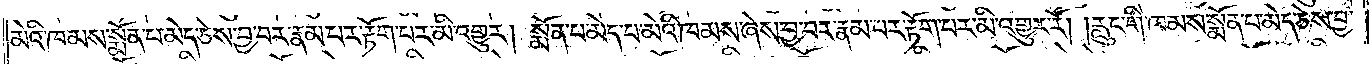མེའི་ཁམས་སྨོན་པ་མེད་ཅེས་བྱ་བར་རྣམ་པར་རྟོག་པར་མི་འགྱུར། སྨོན་པ་མེད་པ་མེའི་ཁམས་ཞེས་བྱ་བར་རྣམ་པར་རྟོག་པར་མི་འགྱུར་རོ། །རླུང་གི་ཁམས་སྨོན་པ་མེད་ཅེས་བྱ་
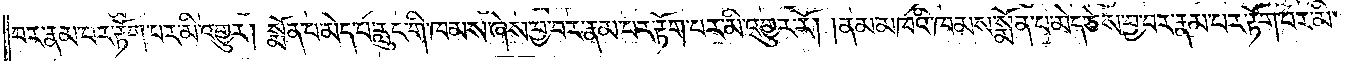བར་རྣམ་པར་རྟོག་པར་མི་འགྱུར། སྨོན་པ་མེད་པ་རླུང་གི་ཁམས་ཞེས་བྱ་བར་རྣམ་པར་རྟོག་པར་མི་འགྱུར་རོ། །ནམ་མཁའི་ཁམས་སྨོན་པ་མེད་ཅེས་བྱ་བར་རྣམ་པར་རྟོག་པར་མི་
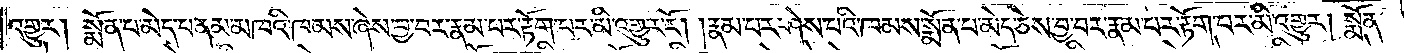འགྱུར། སྨོན་པ་མེད་པ་ནམ་མཁའི་ཁམས་ཞེས་བྱ་བར་རྣམ་པར་རྟོག་པར་མི་འགྱུར་རོ། །རྣམ་པར་ཤེས་པའི་ཁམས་སྨོན་པ་མེད་ཅེས་བྱ་བར་རྣམ་པར་རྟོག་པར་མི་འགྱུར། སྨོན་
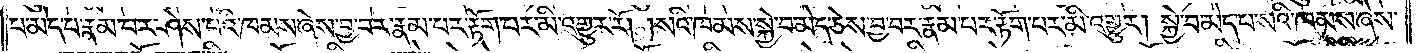པ་མེད་པ་རྣམ་པར་ཤེས་པའི་ཁམས་ཞེས་བྱ་བར་རྣམ་པར་རྟོག་པར་མི་འགྱུར་རོ། །སའི་ཁམས་སྐྱེ་བ་མེད་ཅེས་བྱ་བར་རྣམ་པར་རྟོག་པར་མི་འགྱུར། སྐྱེ་བ་མེད་པ་སའི་ཁམས་ཞེས་
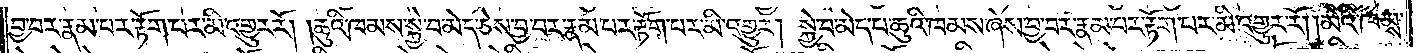བྱ་བར་རྣམ་པར་རྟོག་པར་མི་འགྱུར་རོ། །ཆུའི་ཁམས་སྐྱེ་བ་མེད་ཅེས་བྱ་བར་རྣམ་པར་རྟོག་པར་མི་འགྱུར། སྐྱེ་བ་མེད་པ་ཆུའི་ཁམས་ཞེས་བྱ་བར་རྣམ་པར་རྟོག་པར་མི་འགྱུར་རོ། །མེའི་ཁམས་
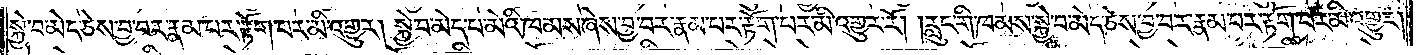སྐྱེ་བ་མེད་ཅེས་བྱ་བར་རྣམ་པར་རྟོག་པར་མི་འགྱུར། སྐྱེ་བ་མེད་པ་མེའི་ཁམས་ཞེས་བྱ་བར་རྣམ་པར་རྟོག་པར་མི་འགྱུར་རོ། །རླུང་གི་ཁམས་སྐྱེ་བ་མེད་ཅེས་བྱ་བར་རྣམ་པར་རྟོག་པར་མི་འགྱུར།
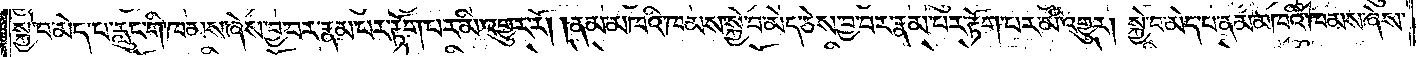སྐྱེ་བ་མེད་པ་རླུང་གི་ཁམས་ཞེས་བྱ་བར་རྣམ་པར་རྟོག་པར་མི་འགྱུར་རོ། །ནམ་མཁའི་ཁམས་སྐྱེ་བ་མེད་ཅེས་བྱ་བར་རྣམ་པར་རྟོག་པར་མི་འགྱུར། སྐྱེ་བ་མེད་པ་ནམ་མཁའི་ཁམས་ཞེས་
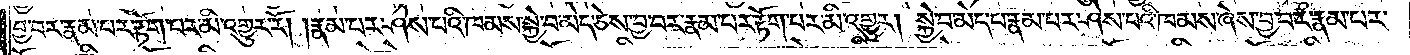བྱ་བར་རྣམ་པར་རྟོག་པར་མི་འགྱུར་རོ། །རྣམ་པར་ཤེས་པའི་ཁམས་སྐྱེ་བ་མེད་ཅེས་བྱ་བར་རྣམ་པར་རྟོག་པར་མི་འགྱུར། སྐྱེ་བ་མེད་པ་རྣམ་པར་ཤེས་པའི་ཁམས་ཞེས་བྱ་བར་རྣམ་པར་
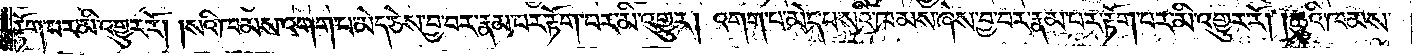རྟོག་པར་མི་འགྱུར་རོ། །སའི་ཁམས་འགག་པ་མེད་ཅེས་བྱ་བར་རྣམ་པར་རྟོག་པར་མི་འགྱུར། འགག་པ་མེད་པ་སའི་ཁམས་ཞེས་བྱ་བར་རྣམ་པར་རྟོག་པར་མི་འགྱུར་རོ། །ཆུའི་ཁམས་
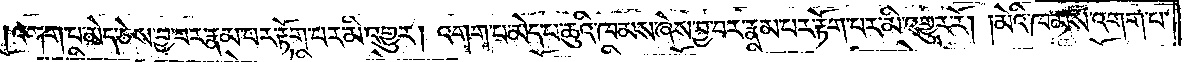འགག་པ་མེད་ཅེས་བྱ་བར་རྣམ་པར་རྟོག་པར་མི་འགྱུར། འགག་པ་མེད་པ་ཆུའི་ཁམས་ཞེས་བྱ་བར་རྣམ་པར་རྟོག་པར་མི་འགྱུར་རོ། །མེའི་ཁམས་འགག་པ་
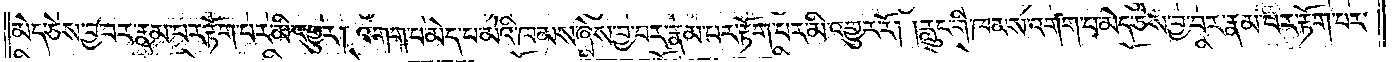མེད་ཅེས་བྱ་བར་རྣམ་པར་རྟོག་པར་མི་འགྱུར། འགག་པ་མེད་པ་མེའི་ཁམས་ཞེས་བྱ་བར་རྣམ་པར་རྟོག་པར་མི་འགྱུར་རོ། །རླུང་གི་ཁམས་འགག་པ་མེད་ཅེས་བྱ་བར་རྣམ་པར་རྟོག་པར་
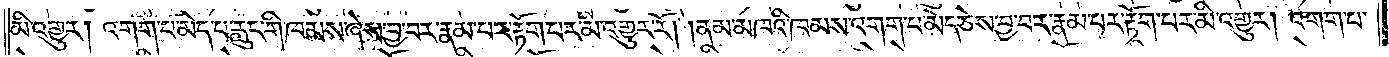མི་འགྱུར། འགག་པ་མེད་པ་རླུང་གི་ཁམས་ཞེས་བྱ་བར་རྣམ་པར་རྟོག་པར་མི་འགྱུར་རོ། །ནམ་མཁའི་ཁམས་འགག་པ་མེད་ཅེས་བྱ་བར་རྣམ་པར་རྟོག་པར་མི་འགྱུར། འགག་པ་
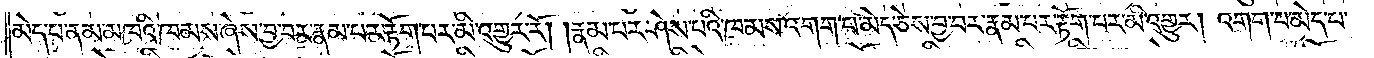མེད་པ་ནམ་མཁའི་ཁམས་ཞེས་བྱ་བར་རྣམ་པར་རྟོག་པར་མི་འགྱུར་རོ། །རྣམ་པར་ཤེས་པའི་ཁམས་འགག་པ་མེད་ཅེས་བྱ་བར་རྣམ་པར་རྟོག་པར་མི་འགྱུར། འགག་པ་མེད་པ་
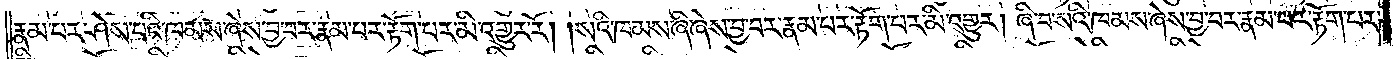རྣམ་པར་ཤེས་པའི་ཁམས་ཞེས་བྱ་བར་རྣམ་པར་རྟོག་པར་མི་འགྱུར་རོ། །སའི་ཁམས་ཞི་ཞེས་བྱ་བར་རྣམ་པར་རྟོག་པར་མི་འགྱུར། ཞི་བ་སའི་ཁམས་ཞེས་བྱ་བར་རྣམ་པར་རྟོག་པར་
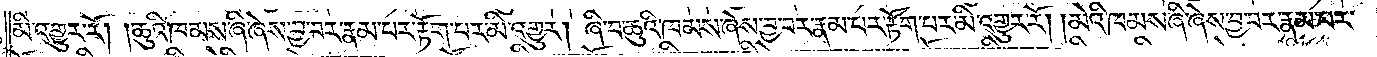མི་འགྱུར་རོ། །ཆུའི་ཁམས་ཞི་ཞེས་བྱ་བར་རྣམ་པར་རྟོག་པར་མི་འགྱུར། ཞི་བ་ཆུའི་ཁམས་ཞེས་བྱ་བར་རྣམ་པར་རྟོག་པར་མི་འགྱུར་རོ། །མེའི་ཁམས་ཞི་ཞེས་བྱ་བར་རྣམ་པར་
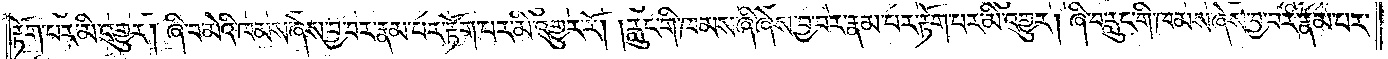རྟོག་པར་མི་འགྱུར། ཞི་བ་མེའི་ཁམས་ཞེས་བྱ་བར་རྣམ་པར་རྟོག་པར་མི་འགྱུར་རོ། །རླུང་གི་ཁམས་ཞི་ཞེས་བྱ་བར་རྣམ་པར་རྟོག་པར་མི་འགྱུར། ཞི་བ་རླུང་གི་ཁམས་ཞེས་བྱ་བར་རྣམ་པར་
